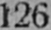126
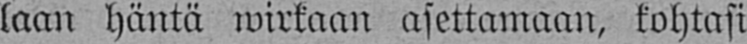laan häntä wirkaan asettamaan, kohtasi
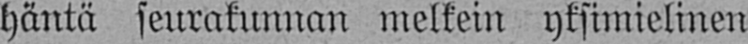häntä seurakunnan melkein yksimielinen
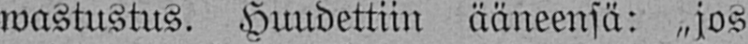wastustus. Huudettiin ääneensä: „jos
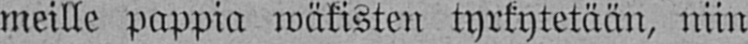meille pappia wäkisten tyrkytetään, niin
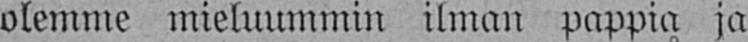olemme mieluummin ilman pappia ja
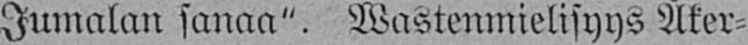Jumalan sanaa". Wastenmielisyys Åker-
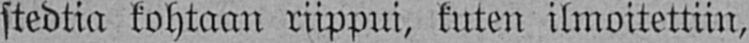stedtia kohtaan riippui, kuten ilmoitettiin,
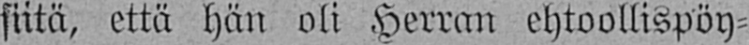siitä, että hän oli Herran ehtoollispöy-
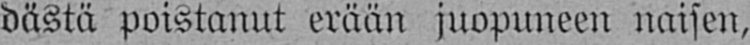dästä poistanut erään juopuneen naisen,
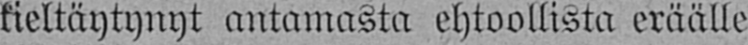kieltäytynyt antamasta ehtoollista eräälle
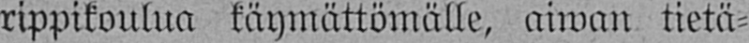rippikoulua käymättömälle, aiwan tietä-
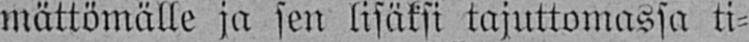mättömälle ja sen lisäksi tajuttomassa ti-
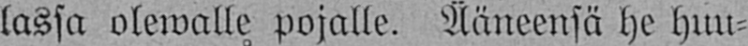lassa olewalle pojalle. Ääneensä he huu-
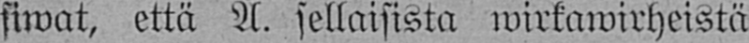siwat, että Å. sellaisista wirkawirheistä
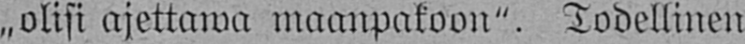„olisi ajettawa maanpakoon". Todellinen
